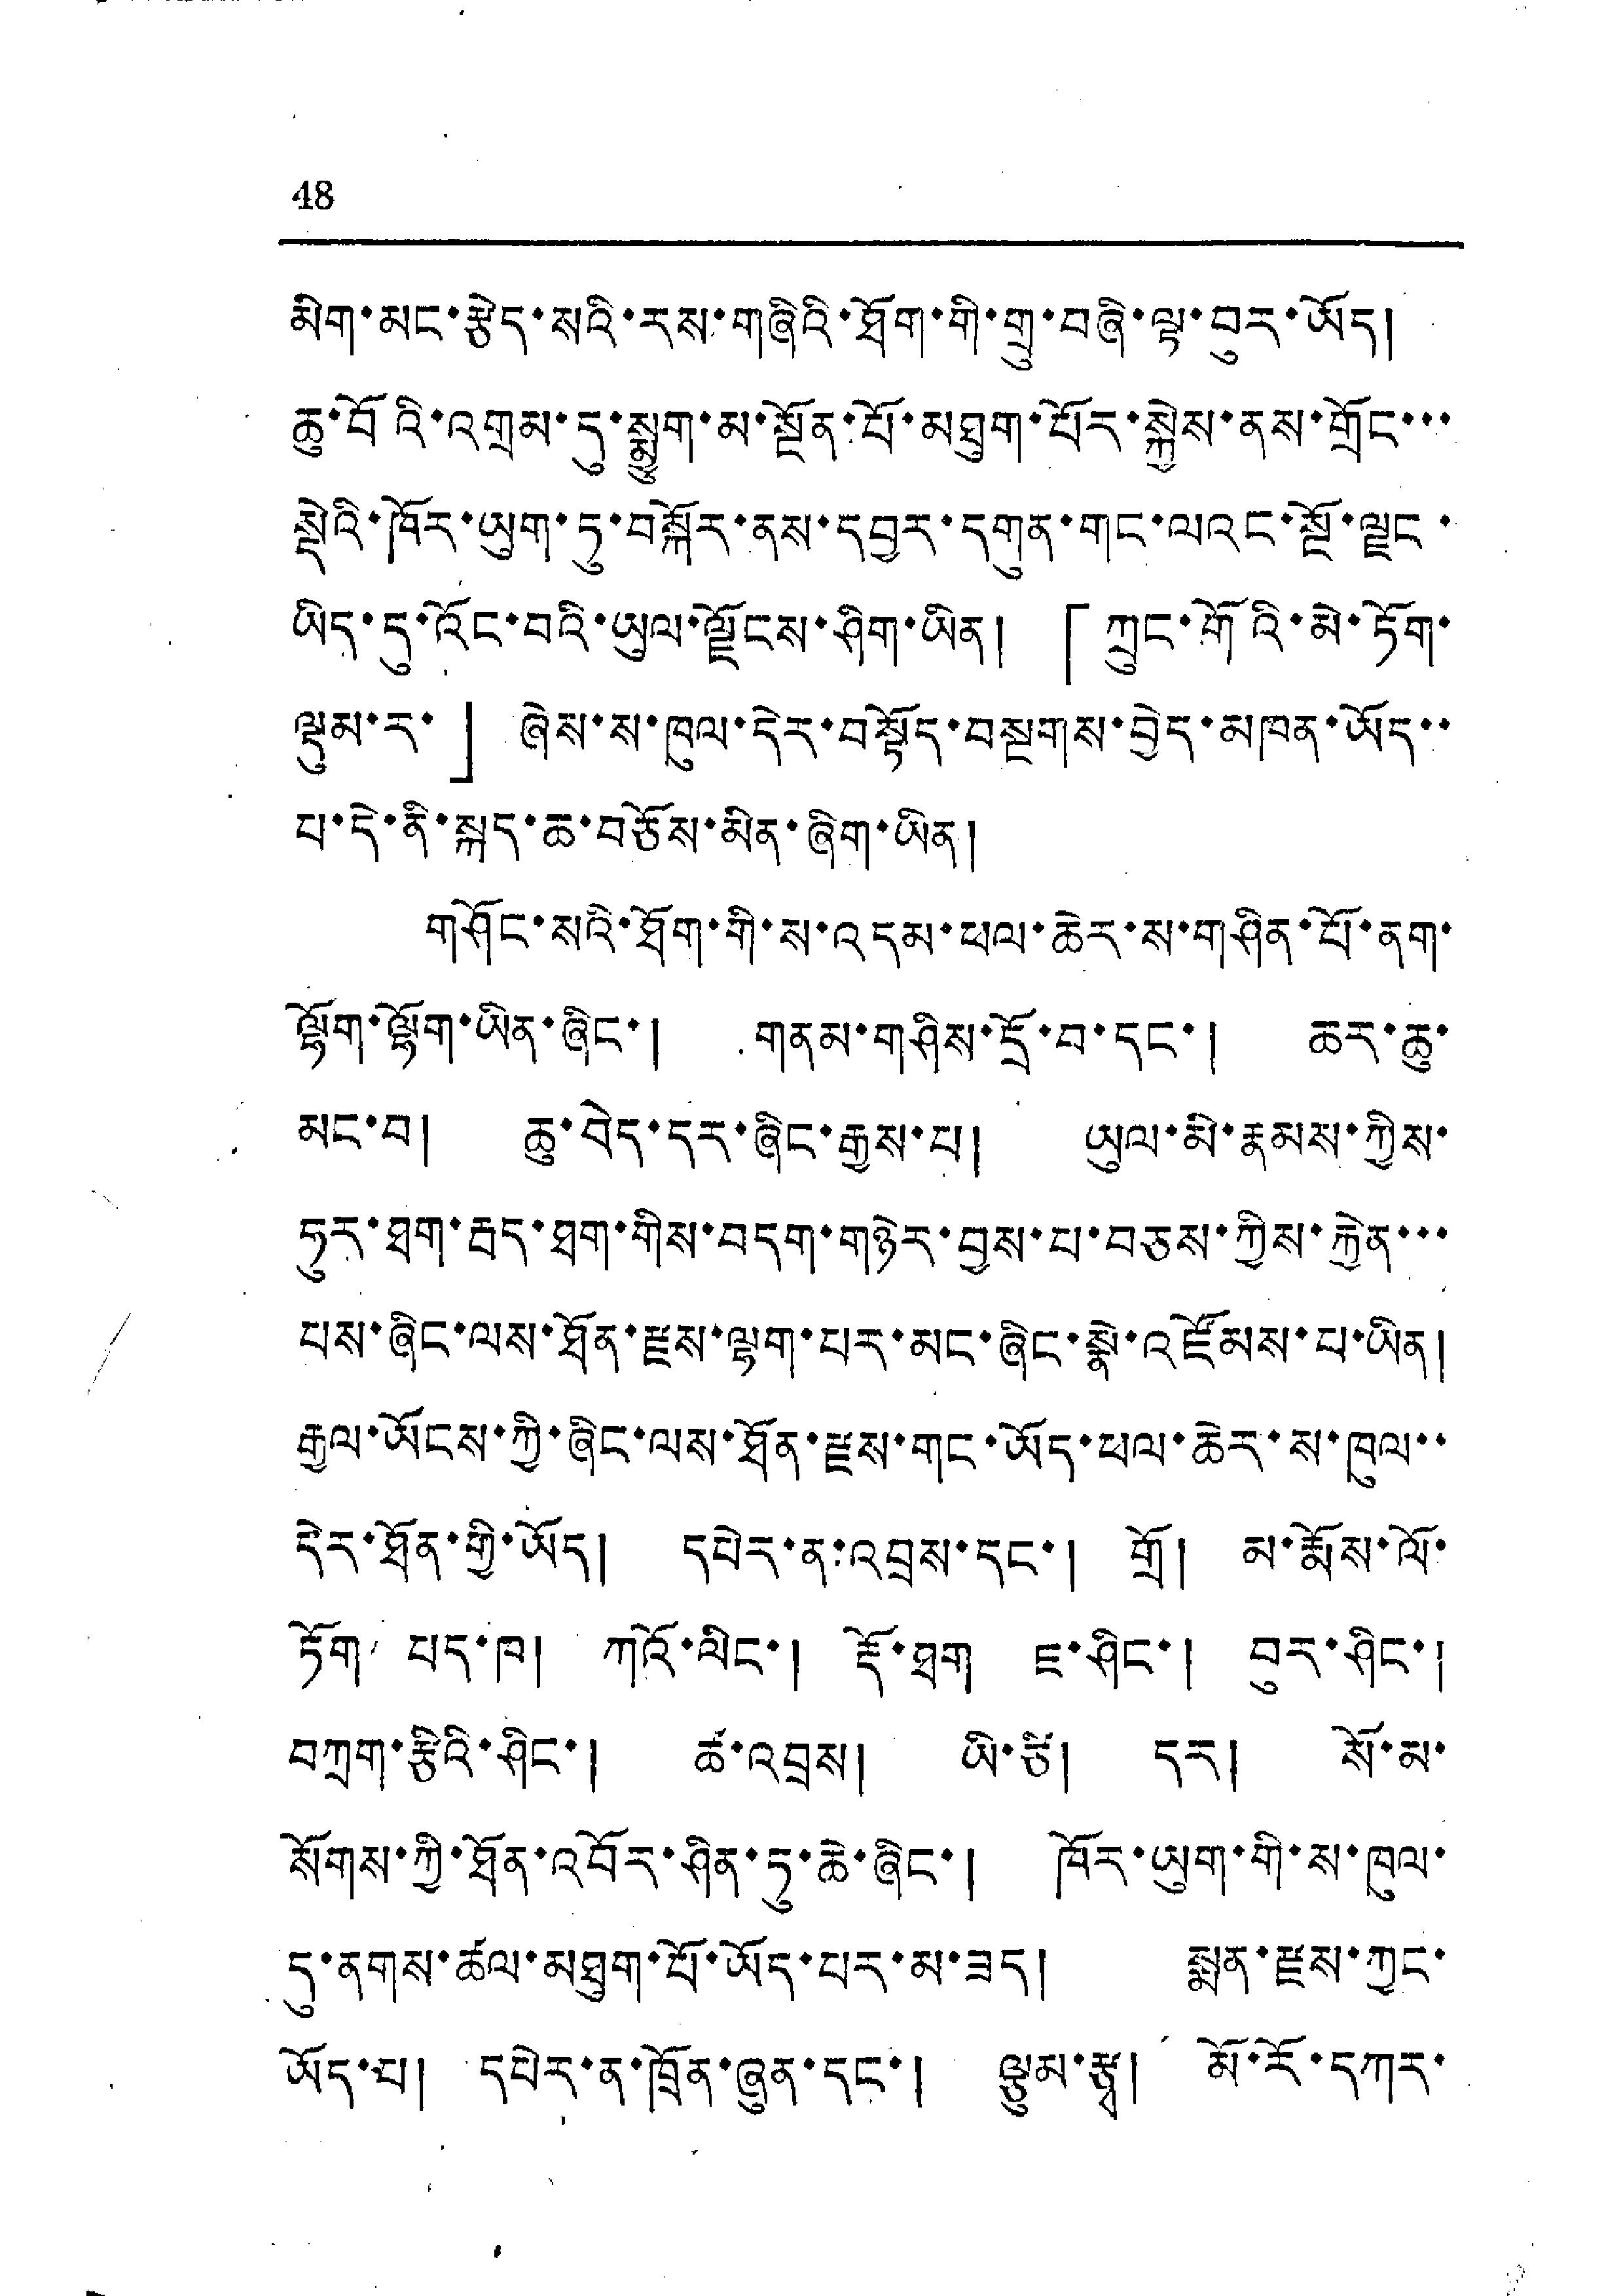48
མིག་མང་རྩེད་སའི་རས་གཞིའི་ཐོག་གི་གྲུ་བཞི་ལྟ་བུར་ཡོད།
ཆུ་བོའི་འགྲམ་དུ་སྨྱུག་མ་སྔོན་པོ་མཐུག་པོར་སྐྱེས་ནས་གྲོང་་་
སྡེའི་ཁོར་ཡུག་ཏུ་བསྐོར་ནས་དབྱར་དགུན་གང་ལའང་སྡོ་ལྗང་
ཡིད་དུ་འོང་བའི་ཡུལ་ལྗོངས་ཤིག་ཡིན། 「ཀྲུང་གོའི་མེ་ཏོག་
ལྡུམ་ར་」ཞེས་ས་ཁུལ་དེར་བསྟོད་བསྔགས་བྱེད་མཁན་ཡོད་་
པ་དེ་ནི་སྐད་ཆ་བཅོས་མིན་ཞིག་ཡིན།
གཤོང་སའི་ཐོག་གི་ས་འདམ་ཕལ་ཆེར་ས་གཤིན་པོ་ནག་
ལྷོག་ལྷོག་ཡིན་ཞིང་། གནམ་གཤིས་དྲོ་བ་དང་། ཆར་ཆུ་
མང་བ། ཆུ་བེད་དར་ཞིང་རྒྱས་པ། ཡུལ་མི་རྣམས་ཀྱིས་
ཧུར་ཐག་རྦད་ཐག་གིས་བདག་གཉེར་བྱས་པ་བཅས་ཀྱིས་རྐྱེན་་་
པས་ཞིང་ལས་ཐོན་རྫས་ལྷག་པར་མང་ཞིང་སྣེ་འཛོམས་པ་ཡིན།
རྒྱལ་ཡོངས་ཀྱི་ཞིང་ལས་ཐོན་རྫས་གང་ཡོད་ཕལ་ཆེར་ས་ཁུལ་་
དེར་ཐོན་གྱི་ཡོད། དཔེར་ན་འབྲས་དང་། གྲོ། མ་རྨོས་ལོ་
ཏོག པད་ཁ། ཀའོ་ལིང་། རྡོ་ཐུག ཇ་ཤིང་། བར་ཤིང་།
བཀྲག་རྩིའི་ཤིང་། ཚ་འབྲས། ཡི་ཙི། དར། སོ་མ་
སོགས་ཀྱི་ཐོན་འབྱོར་ཤིན་ཏུ་ཆེ་ཞིང་། ཁོར་ཡུག་གི་ས་ཁུལ་
དུ་ནགས་ཚལ་མཐུག་པོ་ཡོད་པར་མ་ཟད། སྨན་རྫས་ཀྱང་
ཡོད་པ། དཔེར་ན་ཁྲོན་ཞུན་དང་། ལྕུམ་རྩྭ། མོ་རོ་དཀར་
